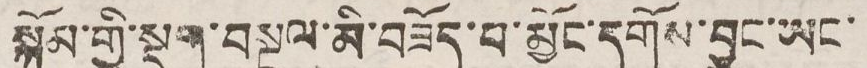སྐོམ་གྱི་སྡུག་བསྔལ་མི་བཟོད་བ་མྱོང་དགོས་བྱུང་ཡང་
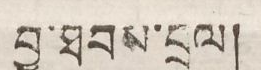བྱ་ཐབས་བྲལ།
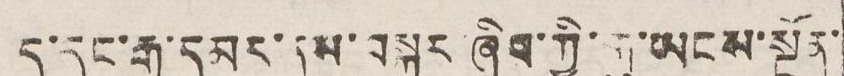ད་དུང་རྒྱ་དམར་ནས་བསྐྱར་ཞིབ་ཀྱི་གུ་ཡངས་སྔོན་
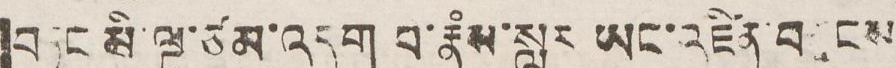བཏང་མི་ལྔ་ཙམ་འདུག བ་རྣཾས་སླར ཡར་འཛིན་བཟུངས
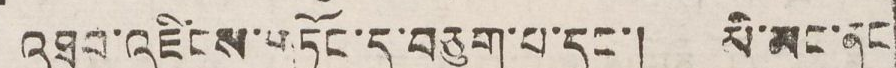འཐབ་འཛིངས་གཏོང་དུ་བཅུག་པ་དང་། མི་མང་ནང
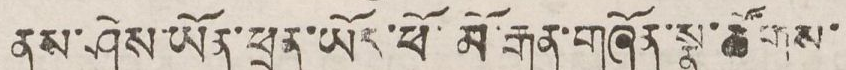ནས་ཤེས་ཡོན་ཕྲན་ཡོར་ཕོ་མོ་རྒན་གཞོན་སྣ་ཚོགས་
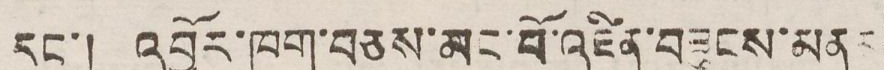དང་། འབྱོར་ཁག་བཅས་མང་པོ་འཛིན་བཟུངས་མནར
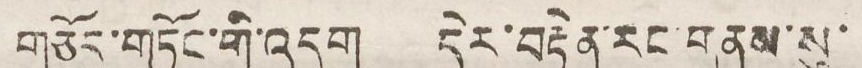གཅོད་གཏོང་གི་འདུག དེར་བརྟེན་རང་གནས་སུ་
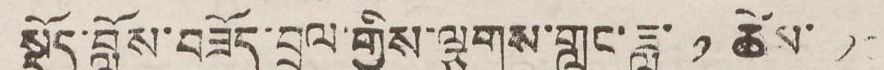སྡོད་སློས་བཟོད་བྲལ་གྱིས་ལྕགས་གླང་ཟླ་ ༡ ཚེས་ ༡༦
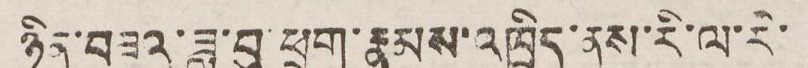ཉིན་བཟའ་ཟླ་བུ ཕྲུག་རྣམས་འཁྲིད་ནས་རི་ལ་རི་
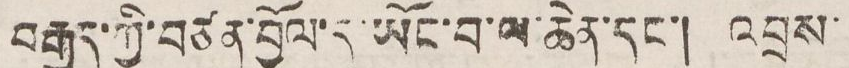བརྒྱུད་ཀྱི་བཙན་བྱོལ་དུ་ཡོང་བ་ལ་ཆེན་དང་། འབྲས་
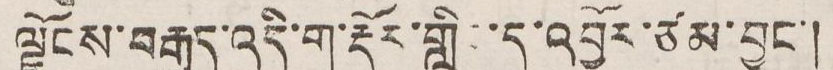ལྗོངས་བརྒྱུད་འདི་ག་རྡོར་གླིང་དུ་འབྱོར་ཙམ་བྱུང་།
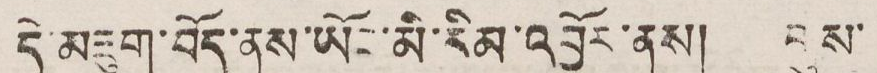དེ་མཇུག་བོད་ནས་ཡོང་མི་རིམ་འབྱོར་ནས། གུས་
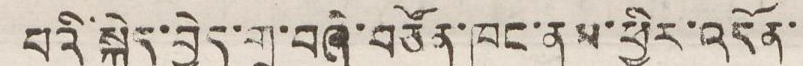པའི་སྐྱིད་བྱེད་གྲ་བཞི་བཙོན་ཁང་ནས་ཕྱིར་འདོན་
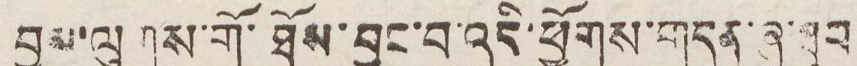བྱས་ལུགས་ཐོས་བྱུང་བ་འདི་ཕྱོགས་གདན་ཞུ་ཐུབ་
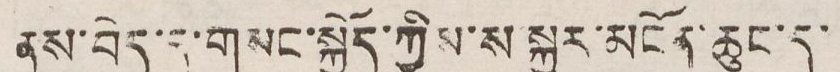ནས་བདེ་དུ་གསར་སྐྱོད་ཀྱིས་ས་སྐྱར་མངོན་ཆུང་དུ་
